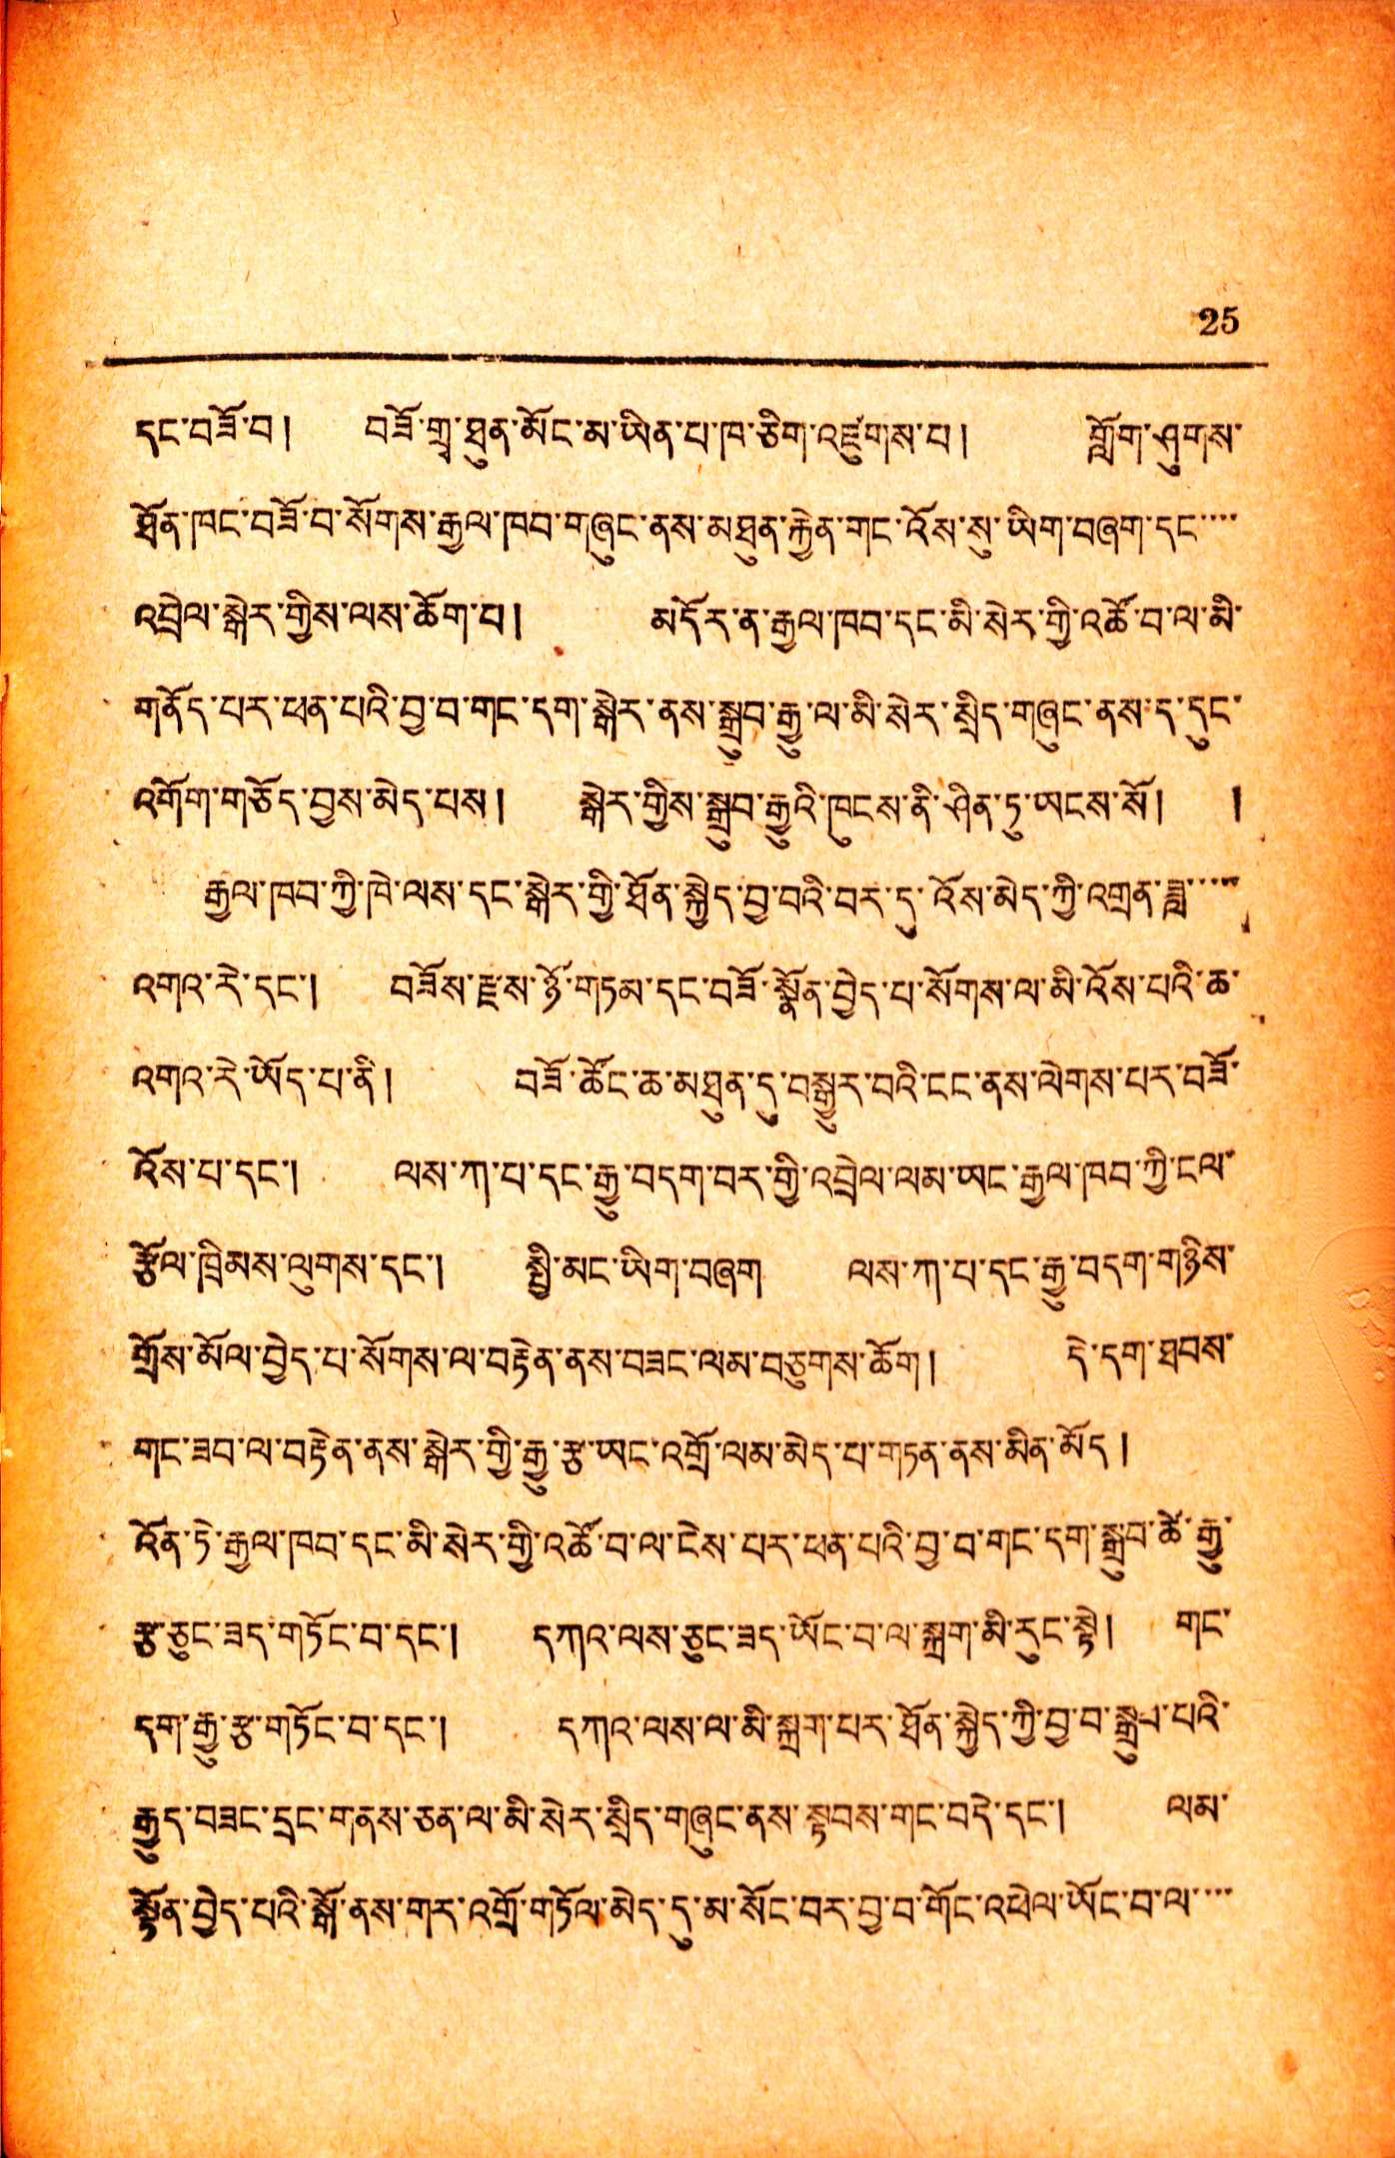25
དང་བཟོ་བ། བཟོ་གྲྭ་ཐུན་མོང་མ་ཡིན་པ་ཁ་ཅིག་འཛུགས་པ། གློག་ཤུགས་
ཐོན་ཁང་བཟོ་བ་སོགས་རྒྱལ་ཁབ་གཞུང་ནས་མཐུན་རྐྱེན་གང་འོས་སུ་ཡིག་གཞག་དང་་་་
འབྲེལ་སྒེར་གྱིས་ལས་ཆོག་པ། མདོར་ན་རྒྱལ་ཁབ་དང་མི་སེར་གྱི་འཚོ་བ་ལ་མི་
གནོད་པར་ཕན་པའི་བྱ་བ་གང་དག་སྒེར་ནས་སྒྲུབ་རྒྱུ་ལ་མི་སེར་སྲིད་གཞུང་ནས་ད་དུང་
འགོག་གཅོད་བྱས་མེད་པས། སྒེར་གྱིས་སྒྲུབ་རྒྱུའི་ཁུངས་ནི་ཤིན་ཏུ་ཡངས་སོ། །
རྒྱལ་ཁབ་ཀྱི་ཁེ་ལས་དང་སྒེར་གྱི་ཐོན་སྐྱེད་བྱ་བའི་བར་དུ་འོས་མེད་ཀྱི་འགྲན་ཟླ་་་་་
འགའ་རེ་དང་། བཟོས་རྫས་ཉོ་གཏམ་དང་བཟོ་སྣོན་བྱེད་པ་སོགས་ལ་མི་འོས་པའི་ཆ་
འགའ་རེ་ཡོད་པ་ནི། བཟོ་ཚོང་ཆ་མཐུན་དུ་བསྒྱུར་བའི་ངང་ནས་ལེགས་པར་བཟོ་
འོས་པ་དང་། ལས་ཀ་པ་དང་རྒྱུ་བདག་བར་གྱི་འབྲེལ་ལམ་ཡང་རྒྱལ་ཁབ་ཀྱི་ངལ་
རྩོལ་ཁྲིམས་ལུགས་དང་། སྤྱི་མང་ཡིག་བཞག ལས་ཀ་པ་དང་རྒྱུ་བདག་གཉིས་
གྲོས་མོལ་བྱེད་པ་སོགས་ལ་བརྟེན་ནས་བཟང་ལམ་བཅུགས་ཆོག། དེ་དག་ཐབས་
གང་ཟབ་ལ་བརྟེན་ནས་སྒེར་གྱི་རྒྱུ་རྩ་ཡང་འགྲོ་ལམ་མེད་པ་གཏན་ནས་མིན་མོད །
ལོན་ཏེ་རྒྱལ་ཁབ་དང་མི་སེར་གྱི་འཚོ་བ་ལ་ངེས་པར་ཕན་པའི་བྱ་བ་གང་དག་སྒྲུབ་ཚེ་རྒྱུ་
རྩ་ཅུང་ཟད་གཏོང་བ་དང་། དཀའ་ལས་ཅུང་ཟད་ཡོང་བ་ལ་སྐྲག་མི་རུང་སྟེ། གང་
དག་རྒྱུ་རྩ་གཏོང་བ་དང་། དཀའ་ལས་ལ་མི་སྐྲག་པར་ཐོན་སྐྱེད་ཀྱི་བྱ་བ་སྒྲུབ་པའི་
རྒྱུད་བཟང་དྲང་གནས་ཅན་ལ་མི་སེར་སྲིད་གཞུང་ནས་སྟབས་གང་བདེ་དང་། ལམ་
སྟོན་བྱེད་པའི་སྒོ་ནས་གར་འགྲོ་གཏོལ་མེད་དུ་མ་སོང་བར་བྱ་བ་གོང་འཕེལ་ཡོང་བ་ལ་་་་
